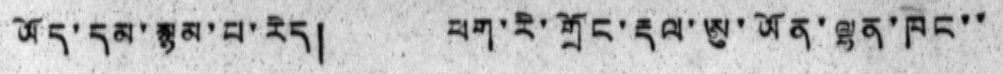ཡོད་དམ་སྙམ་པ་རེད། ཕག་རི་གྲོང་རྡལ་ཨུ་ཡོན་ལྷན་ཁང་་
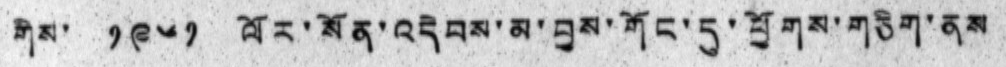གིས་ ༡༩༦༡ ལོར་སོན་འདེབས་མ་བྱས་གོང་དུ་ཕྱོགས་གཅིག་ནས
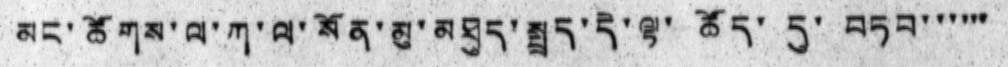མང་ཚོགས་ལ་ཀ་ལ་སོན་མུ་མཐུད་སྤྲད་དེ་ལྟ་ཚོད་དུ་བཏབ་་་་་་
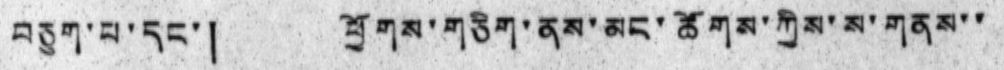བཅུག་པ་དང་། ཕྱོགས་གཅིག་ནས་མང་ཚོགས་ཀྱིས་ས་གནས་་
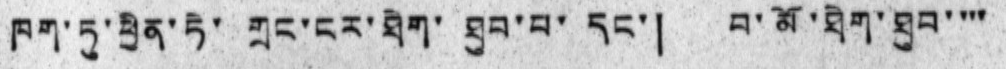ཁག་ཏུ་ཕྱིན་ཏེ་ གྲང་ངར་ཐེག་ ཐུབ་པ་ དང་། བ་མོ་ཐེག་ཐུབ་་་་
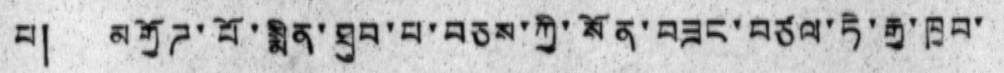པ། མགྱོཌ་པོ་སྨིན་ཐུབ་པ་བཅས་ཀྱི་སོན་བཟང་བཙལ་ཏེ་རྒྱ་ཁྱབ་
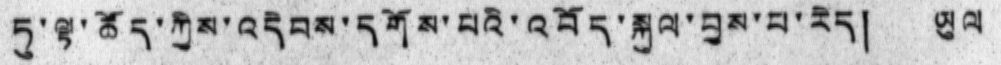མི་ཨུ་ཡོན་ལྷན་ཁང་གཉིས་པའི་འབོད་སྐུལ་བྱས་པ་རེད། ཡུལ
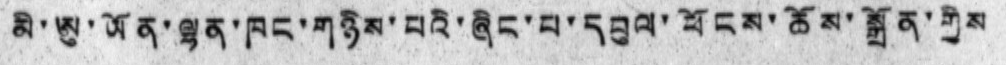མི་ཨུ་ཡོན་ལྷན་ཁང་གཉིས་པའི་ཞིང་པ་དབུལ་ཕོངས་ཆོས་སྒྲོན་གྱིས
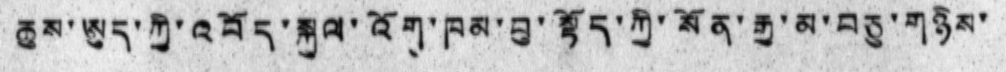ཆུས་ཨུད་ཀྱི་འབོད་སྐུལ་འོག་ཁམ་བུ་སྟོད་ཀྱི་སོན་རྒྱ་མ་བཅུ་གཉིས་
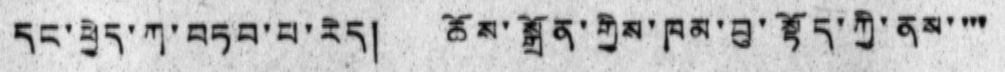དང་ཕྱེད་ཀ་བཏབ་པ་རེད། ཆོས་སྒྲོན་གྱིས་ཁམ་བུ་སྟོད་ཀྱི་ནས་་་་
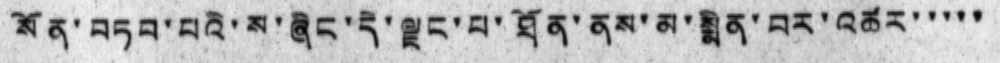སོན་བཏབ་པའི་ས་ཞིང་དེ་ལྗང་པ་ཐོན་ནས་མ་སྨིན་བར་འཚར་་་་་
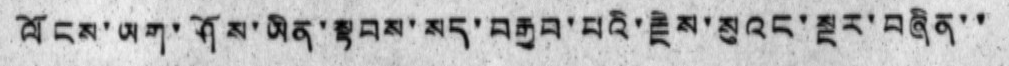ལོངས་ཡག་ཤོས་ཡིན་སྟབས་སད་བརྒྱབ་པའི་རྗེས་སུའང་སྔར་བཞིན་་
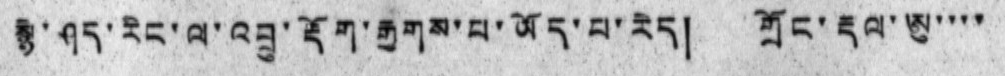སྙེ་ཤད་རིང་ལ་འབྲུ་རྡོག་རྒྱགས་པ་ཡོད་པ་རེད། གྲོང་རྡལ་ཨུ་་་་
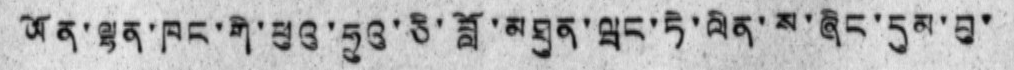ཡོན་ལྷན་ཁང་གི་ཕུའུ་ཧྲུའུ་ཅི་བློ་མཐུན་ཝང་ཏེ་ལིན་ས་ཞིང་དུམ་བུ་
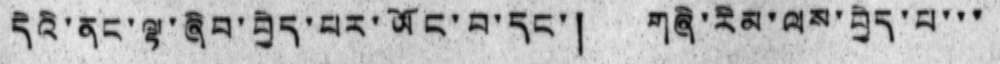དེའི་ནང་ལྟ་ཞིབ་བྱེད་པར་ཡོང་བ་དང་། གཞི་རིམ་ལས་བྱེད་པ་་་
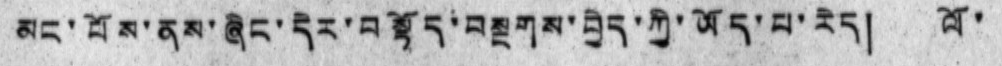མང་པོས་ནས་ཞིང་དེར་བསྟོད་བསྔགས་བྱེད་ཀྱི་ཡོད་པ་རེད། ལོ་
